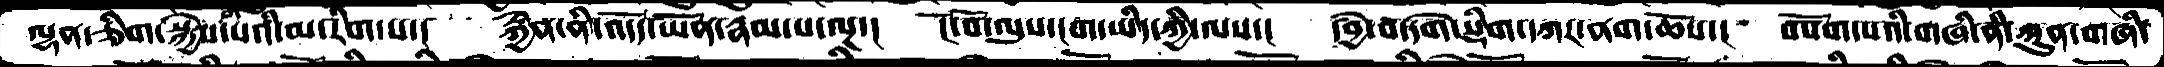ལྷན་ཅིག་སྐྱེས་པའི་མ་རིག་པ་།  རྐྱེན་ནི་འདོད་ཡོན་རྣམ་པ་ལྔ་། ངོ་བོ་ལུས་ངག་ཡིད་ཀྱི་ལས་། དབྱེ་བ་དགེ་སྡིག་དཀར་ནག་ཆོས་།  བསོག་པའི་གཞི་ནི་ཀུན་གཞི་
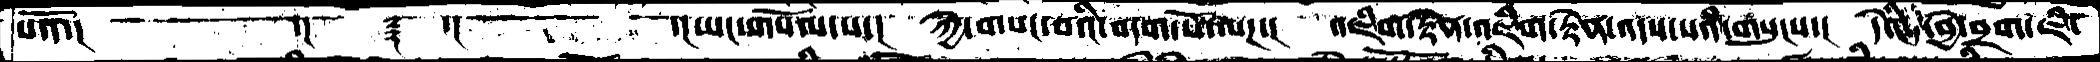པའོ་།    ་།  ༈  །།།  ་།ཡང་གསོལ་པ་།  ཀྱེ་གསང་བའི་བདག་པོ་ལཌ་།  འཇིག་རྟེན་འཇིག་རྟེན་འདས་པའི་གསུངས་།  དེའི་བྱེ་བྲག་ཇི་
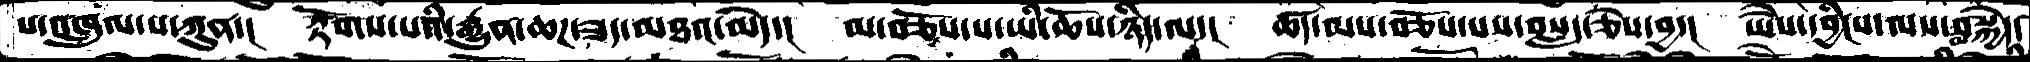པ་འཁྲུལ་པ་ཀུན་།  རྟོགས་པའི་རྒྱུན་ཆཌ་ཟད་མཐའ་མེད་།  མ་བཅོས་པ་ཡི་ཆོས་ཉིད་ལ་། ཚད་མས་བཅོས་པས་བསླད་ཅེས་བྱ་།  ཡཻས་དབྱིངས་ལས་མ་བསྐྱེད་
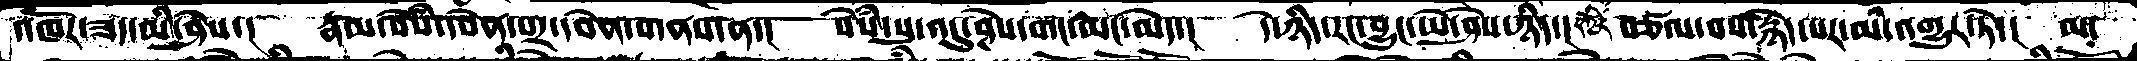འཁོར་ཟད་མི་ཤེས་། རྣམ་སེཾས་དབེན་པར་དབེན་གནས་ན་།  སེཾས་སུ་འདུ་ཤེས་གང་ཡང་མེད་།  དེ་ཉིད་རང་བྱུང་ཡེ་ཤེས་ཉིད་།  དཀྱིོ བཙལ་བས་རྙེད་པར་མི་འགྱུར་ཏེ་།  མ་
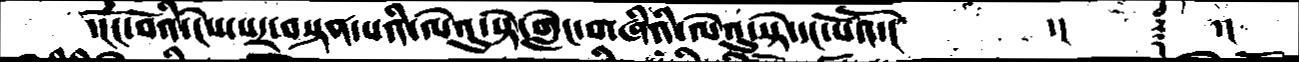་།ངོ་བོའི་ངེས་པར་བསྟན་པའི་ལེའུ་སྟེ་གླེང་གཞིའི་ལེའུ་སྟེ་དང་པོའོ་།      ་།    ༈     ་།
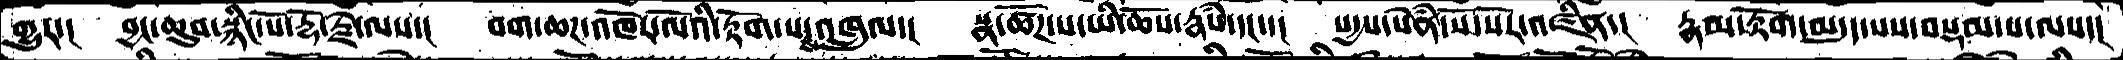གྱུར་།   བྱང་ཆུབ་སྙིང་པོ་རྡོ་རྗེ་ལས་།  བག་ཆཌ་འཁོར་ལོའི་རྟོག་པས་འཁྲུལ་།  སྣ་ཚོཌ་པ་ཡི་ཆོས་རྣཾས་དང་་།  སདྱས་སེཾན་སོ་སོར་འཛིན་།  རྣམ་རྟོག་མདུད་པས་བསྡམ་པ་ལས་།
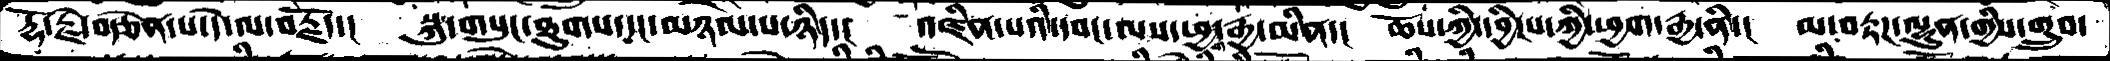རྡོ་རྗེ་བརྩེན་པ་དེ་ལ་བརྗོད་།  སྐུ་གསུང་ཐུགས་དང་མཉམ་པ་ཉིད་།  འཛིན་པའི་དབང་ལས་ཕྱག་རྒྱ་མིན་། ཆོས་ཀྱི་དབྱིངས་ཀྱི་ཕྱག་རྒྱ་ནི་།  མ་བརྟཌ་ལྷུན་གྱིས་གྲུབ་
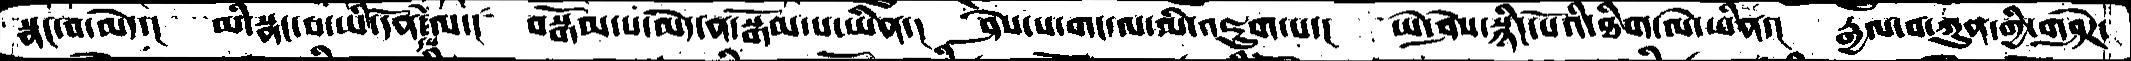སྣང་བ་མེད་།  མི་སྣང་བ་ཡི་དོན་དེ་ལ་།  བསྒོམ་པ་མེད་ན་སྒོམ་པ་ཡིན་། ཤེས་པ་གང་ལ་མི་འཇུག་པ་། ཡེ་ཤེས་སྙིང་པོའི་ཐིག་ལེ་ཡིན་།  རྒྱལ་བ་ཀུན་གྱི་གཤེཌ་
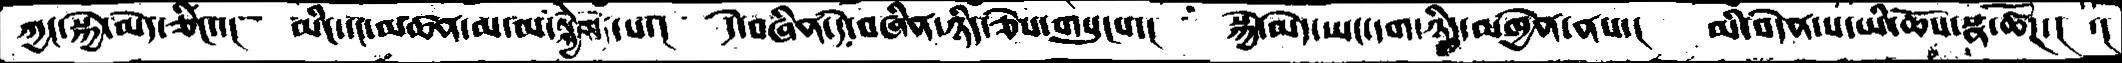ཀྱང་སྐྱེ་མེད་ཅིང་་།  མིང་དང་མཚན་མ་མ་སྐྱེས་པ་།  དེ་བཞིན་དེ་བཞིན་ཉིད་ཅེས་གསུངས་།  སྐྱེ་མེད་ཡང་དག་ཉིད་མཁྱེན་ནས་། མི་བདེན་པ་ཡི་ཆོས་སྣ་ཚོཌ་།  ་།
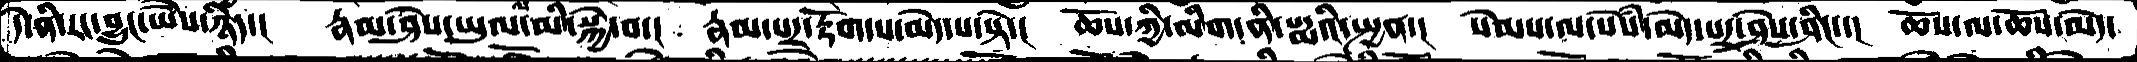དེ་ནི་རང་བྱུང་ཡཻས་ཉིད་།  རྣམ་ཤེས་ཡུལ་ལ་མི་སྐྱེ་བ་།  རྣམ་པར་རྟོག་པ་མེད་པ་སྟེ་།  ཆོས་ཀྱི་མིག་ནི་པདྨའི་སྤྱན་།  སེམས་ལ་སེཾས་མེད་པར་ཤེས་ཤིང་་། ཆོས་ལ་ཆོས་མེད་
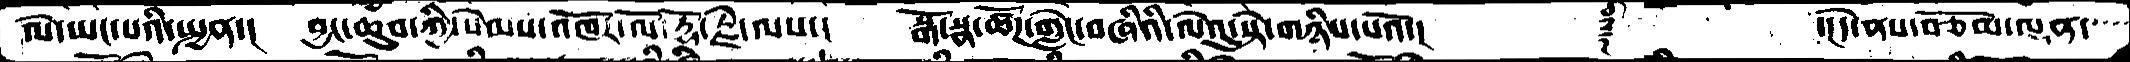ལེ་ཡང་པའི་སྤྱན་། བྱང་ཆུབ་ཀྱི་སེམས་འཁོར་ལོ་རྡོ་རྗེ་ལས་།  སྒོ་སྣ་ཚོཌ་གླེང་བཞིའི་ལེའུ་སྟེ་གཉིས་པའོ་།    ༈     ་།དེ་ནས་བཅོམ་ལྡན་་་་
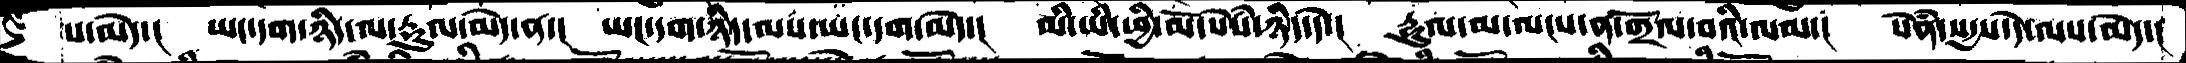པ་མེད་།  ཡང་དག་ཉིད་ལ་རྡུལ་མེད་ན་།  ཡང་དག་ཉིད་ལས་ཡང་དག་མེད་།  མི་ཡི་ཕྱི་མོ་སེཾས་ཉིད་དེ་། རྡུལ་མ་ལངས་ན་གྲོལ་བའི་ལམ་།  སེཾན་སདྱས་དེ་ལས་མེད་།
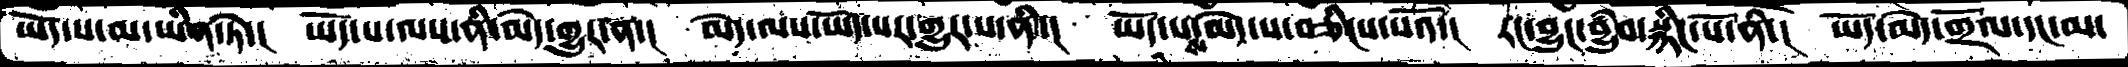ཡོད་པ་མ་ཡིན་ཏེ་།  ཡོད་པ་ལས་ནི་མེད་གྱུར་ན་།  མེད་ལས་ཡོད་པར་གྱུར་པ་ནི་།  ཡོད་པས་མེད་པ་བཅིངས་པའོ་། རང་བྱུང་བྱུཾབ་སྙིང་པོ་ནི་། ཡོད་མེད་གྲོལ་དང་མ་
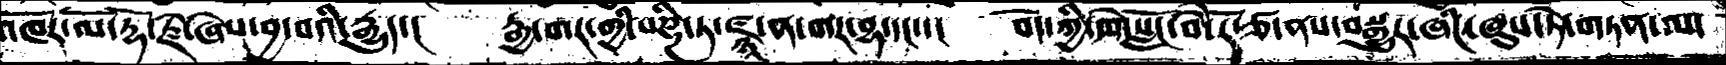འཁོར་ལོ་རྡོ་རྗེ་ཞེས་བྱ་བའི་རྒྱུད་།    རྒྱ་གར་གྱི་པཎྜི་ཏ་ཛྙཱ་ན་གར་བྷ་དང་་།  བོད་ཀྱི་དགེ་སློང་བཻ་རོ་ཙ་ནས་བསྒྱུར་ཞིང་ཞུས་ཏེ་གཏན་ལ་
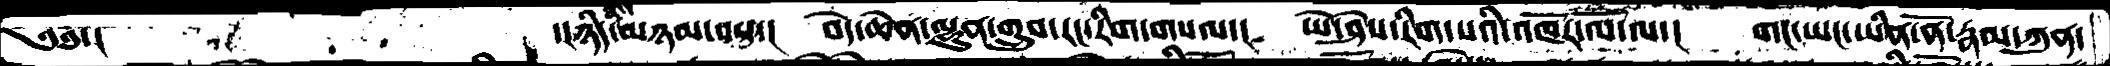༄༅་།        ་།ཉིད་མཉམ་བས་།   བདེ་ཆེན་ལྷུན་གྲུབ་རང་རིག་གསལ་།  ཡེ་ཤེས་རིག་པའི་འཁོར་ལོ་ལ་།  གང་ཡང་ཡིན་ནོ་རྣམ་ཀུན་
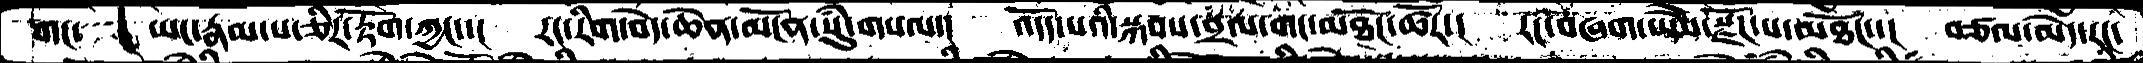གང་་་ ། ཡང་རྣམ་པ་ཅིར་རྟོག་ཀྱང་་།  རང་རིག་བདེ་ཆེན་མངོན་སུཾ་གསལ་།  འདོད་པའི་སྐབས་བྲལ་གང་མཐོང་ཚོར་།  རང་བཞག་ཡཻས་སྫོཌ་པ་མཐོང་་།  བཙལ་མེད་རང་
